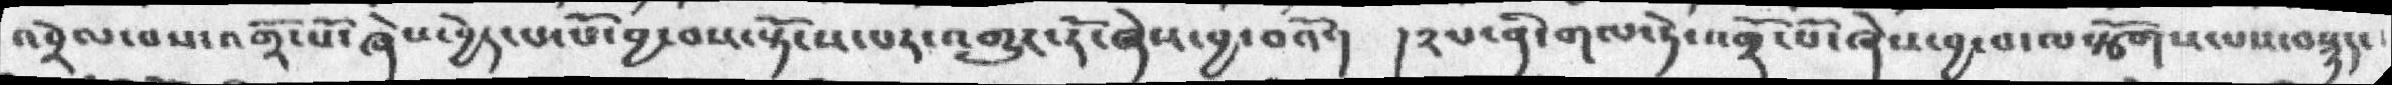འབྲེལ་བས་འགྲོ་པོ་ཞེས་བྱེད་པ་པོ་བྱ་བས་སྟོངས་པར་འགྱུར་རོ་ཞེས་བྱ་བའོ་།  །༢པ་ནི་གལ་ཏེ་འགྲོ་པོ་ཞེས་བྱ་བ་ལསྩོགས་པས་བསྙད་
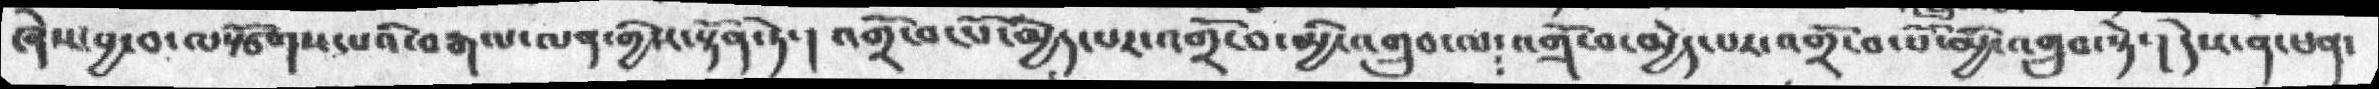ཞེས་བྱ་བ་ལསྩོགས་པའི་བརྒལ་ལན་གྱིས་སྟོན་ཏེ་། འགྲོ་བ་པོ་མྱེད་པར་འགྲོ་བ་མྱི་འགྲུབ་ལ༴འགྲོ་བ་མྱེད་པར་འགྲོ་བ་པོ་མྱི་འགྲུབ་སྟེ་། དེས་ན་ཕན་
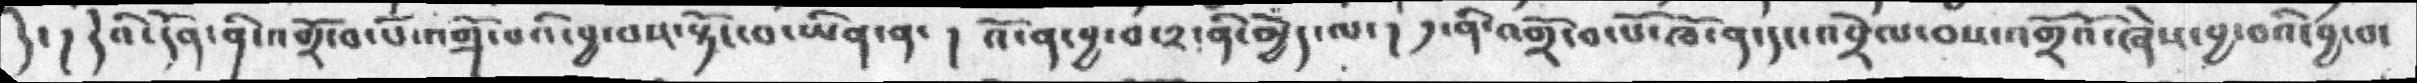དེ་ ། དེའི་དོན་ནི་འགྲོ་བ་པོ་འགྲོ་པའི་བྱ་བས་སྟོང་བ་ཡིན་ན་  ། འོ་ན་བྱ་བ་༢་ནི་མྱེད་ལ་།  ༡་ནི་འགྲོ་བ་པོ་ཁོ་ན་དང་འབྲེལ་བས་འགྲོའོ་ཞེས་བྱ་བའི་བྱ་བ་
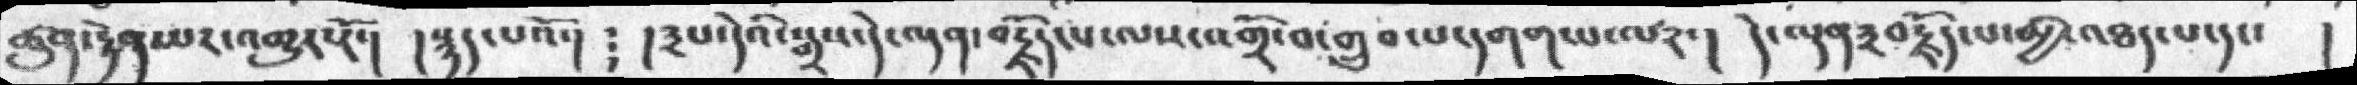ཚུན་རྟེན་པར་འགྱུར་རོ་།  ། སྙད་པའོ་། ༴  །༣པ་དེའི་སྒྲས་དེ་ལྡན་བརྗོད་པ་ལས་འགྲོ་བ་གྲུབ་པ་དང་དགག་པ་ལ༢་།    དེ་ལྡན༣བརྗོད་པ་མྱི་འཐད་པ་དང་   །
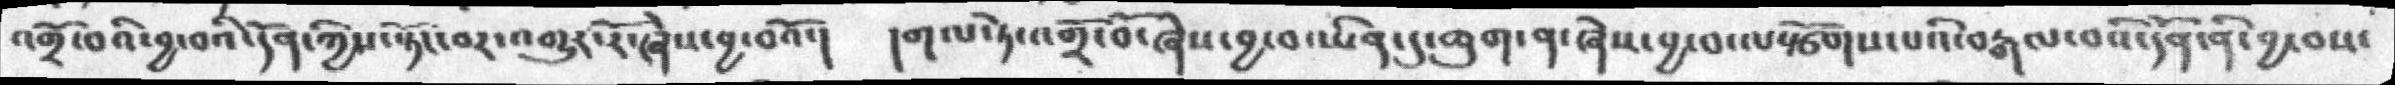འགྲོ་བའི་བྱ་བའི་དོན་ཀྱིས་སྟོང་བར་འགྱུར་རོ་ཞེས་བྱ་བའོ་།   །གལ་ཏེ་འགྲོ་བོ་ཞེས་བྱ་བ་ཡིན་དུ་ཆུག་ན་ཞེས་བྱ་བ་ལསྩོགས་པའི་བརྒལ་བའི་དོན་ནི་བྱ་བས་
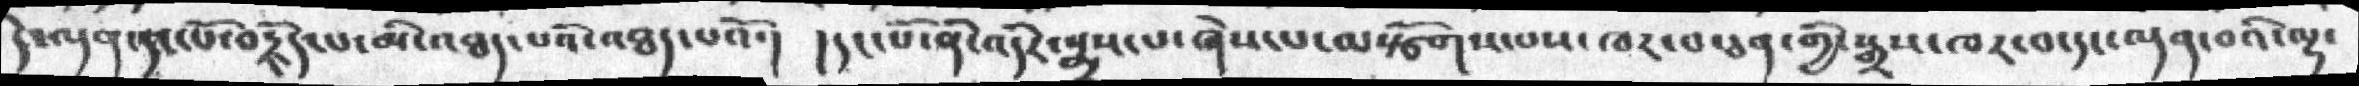དེ་ལྡན་དང་པོ་བརྗོད་པ་མི་འཐད་པའི་འཐད་པའོ་།   །དང་པོ་ནི་འདིར་སྨྲས་པ་ཞེས་པ་ལསྩོགས་པས་ཁར་བ་ཅན་གྱི་སྒྲས་ཁར་བ་དང་ལྡན་བའི་ལྷ་
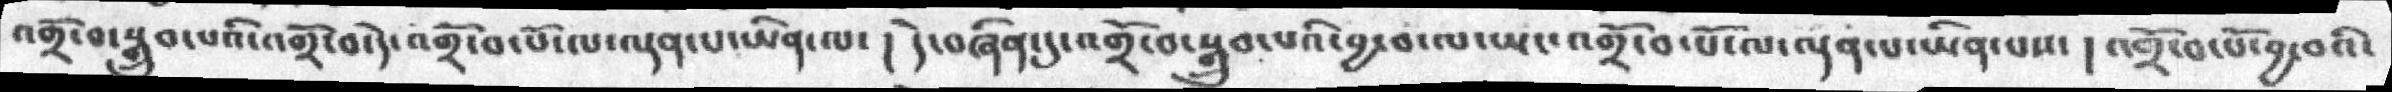འགྲོ་བ་སྒྲུབ་པའི་འགྲོ་བ་དེ་འགྲོ་བ་པོ་ལ་ལྡན་པ་ཡིན་ལ་  ། དེ་བཞིན་དུ་འགྲོ་བ་སྒྲུབ་པའི་བྱ་བ་ལ་ཡང་འགྲོ་བ་ལ་ལྡན་པ་ཡིན་པས་  ། འགྲོ་བ་པོ་བྱ་བའི་
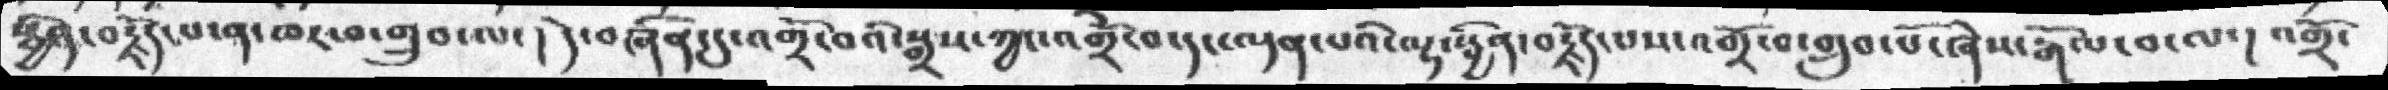སྦྱིན་བརྗོད་པ་ན་ཁར་བ་གྲུབ་ལ་།  དེ་བཞིན་དུ་འགྲོ་བའི་སྒྲས་ཀྱང་འགྲོ་བ་དང་ལྡན་པའི་ལྟ་སྦྱིན་བརྗོད་པས་འགྲོ་བ་གྲུབ་པོ་ཞེས་རྒོལ་བ་ལ་།  འགྲོ་
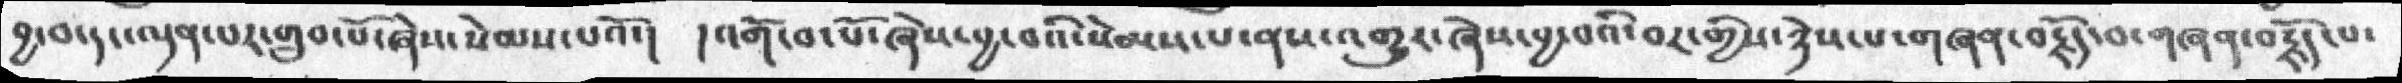བྱ་བ་དང་ལྡན་པར་གྲུབ་པོ་ཞེས་སེམས་པའོ་།  །འགོ་བ་པོ་ཞེས་བྱ་བའི་སེམས་པ་ནས་འགྱུར་ཞེས་བྱ་བའི་བར་གྱིས་ཉེས་པ་གཞན་བརྗོད་བ་གཞན་བརྗོད་པ་
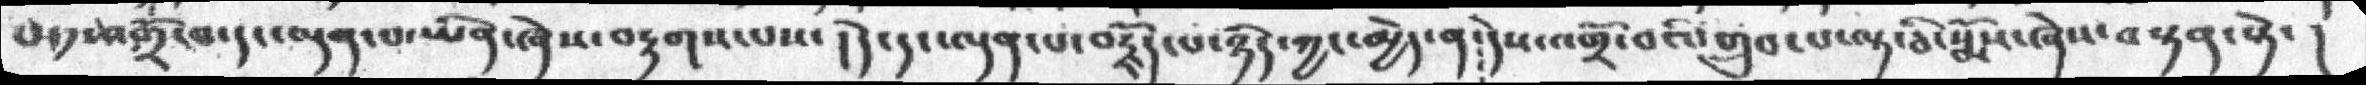པ་༡་འགྲོ་བ་དང་ལྡན་པ་ཡིན་ཞེས་བརྟགས་པས་། དེ་དང་ལྡན་པ་བརྗོད་པ་ཉིད་ཀྱང་མྱེད་ན༴ དེས་འགྲོ་བའི་གྲུབ་པ་ལྟ་ཅི་སྨོས་ཞེས་བསྟན་སྟེ་།
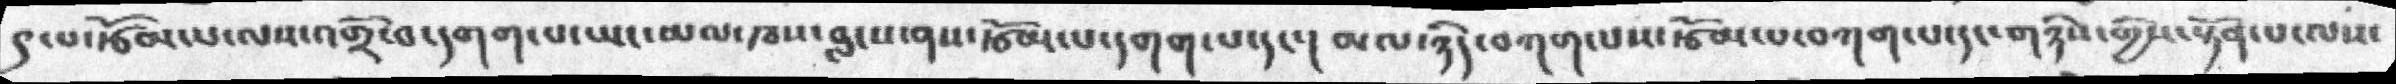༩་པ་རྩོམ་པ་ལས་འགྲོ་བ་དགག་པ་ཡང་མལ་ཁས་བླངས་ནས་རྩོམ་པ་དགག་པ་དང་། མལ་ཉིད་བཀག་པས་རྩོམ་པ་བཀག་པ་དང་གཉིས་གྱིས་སྟོན་པ་ལས་
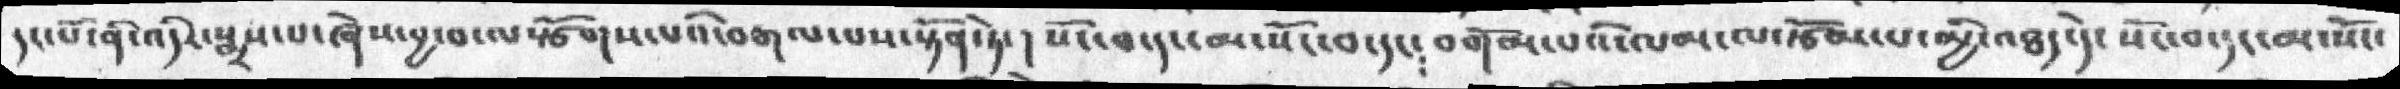དང་པོ་ནི་འདིར་སྨྲས་པ་ཞེས་བྱ་བ་ལསྩོགས་པའི་བརྒལ་པས་སྟོན་ཏེ་།  སོང་བ་དང་མ་སོང་བ་དང༴ བགོམ་པའི་ལམ་ལསྩོགས་པ་མྱི་འཐད་དེ་སོང་བ་དང་མ་སོང་
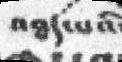འཐད་པའི་
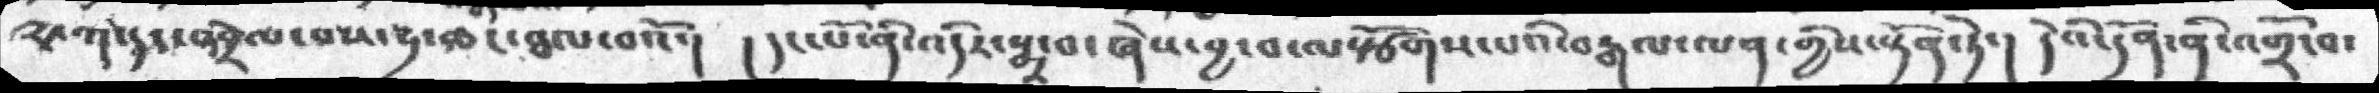༢་ཀ་དང་འབྲེལ་བས་ཧ་ཆང་ཐལ་བའོ་།  །དང་པོ་ནི་འདིར་སྨྲ་བ་ཞེས་བྱ་བ་ལསྩོགས་པའི་བརྒལ་ལན་གྱིས་སྟོན་ཏེ་། དེའི་དོན་ནི་འགྲོ་བ་
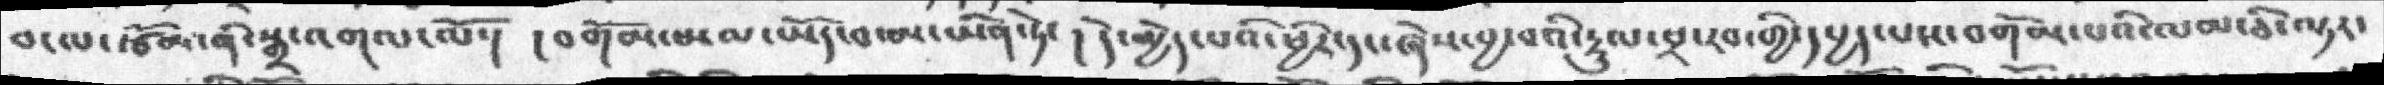བ་ལ་རྩོམ་ནི་སྒྲ་འགལ་ལོ་།  །བགོམ་མལ་ཡོད་བ་མ་ཡིན་ཏེ་།  དེ་མྱེད་པའི་ཕྱིར་དང་ཞེས་བྱ་བའི་རྡུལ་ཕྲ་རབ་གྱི་དཔྱད་པས་བགོམ་པའི་ལམ་ཅི་ལྟར་
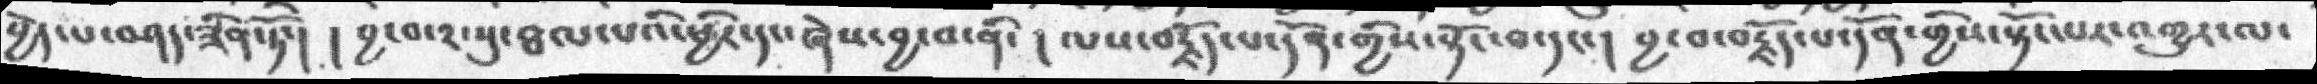བྱེད་པ་བཤད་ཟིན་ཏོ་།  །བྱ་བ་༢་སུ་ཐལ་པའི་ཕྱིར་དང་ཞེས་བྱ་བ་ནི་། ལས་བརྗོད་པ་དོན་གྱིས་སྟོང་བ་དང་། བྱ་བ་བརྗོད་པ་དོན་གྱིས་སྟོང་པར་འགྱུར་ལ་
